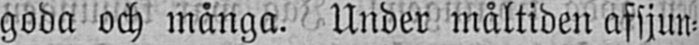goda och många. Under måltiden afsjun-
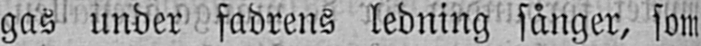gas under fadrens ledning sånger, som
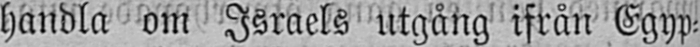handla om Israels utgång ifrån Egyp-
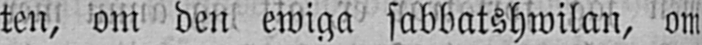ten, om den ewiga sabbatshwilan, om
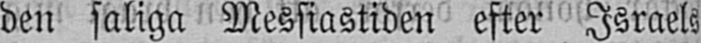den saliga Messiastiden efter Israels
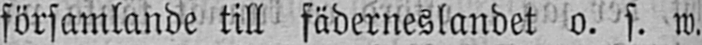församlande till fäderneslandet o. s. w.
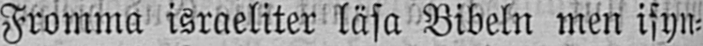Fromma israeliter läsa Bibeln men isyn-
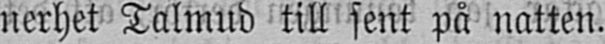nerhet Talmud till sent på natten.
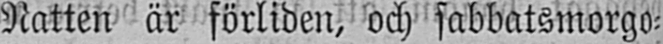Natten är förliden, och sabbatsmorgo-
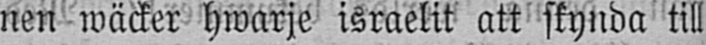nen wäcker hwarje israelit att skynda till
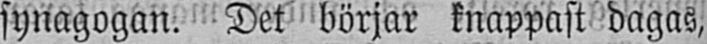synagogan. Det börjar knappast dagas,
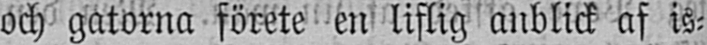och gatorna förete en liflig anblick af is-
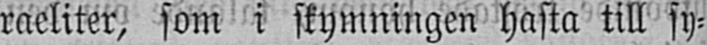raeliter, som i skymningen hasta till sy-
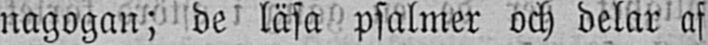nagogan; de läsa psalmer och delar af
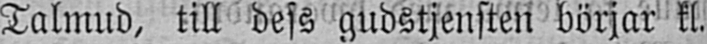Talmud, till dess gudstjensten börjar kl.
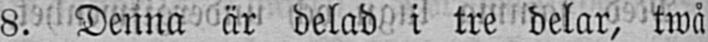8. Denna är delad i tre delar, twå
